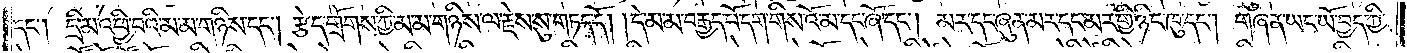དང༌། དྲི་མ་འཕྱི་བའི་མ་མ་གཉིས་དང༌། རྩེད་གྲོགས་ཀྱི་མ་མ་གཉིས་ལ་རྗེས་སུ་གཏད་དོ། །དེ་མ་མ་བརྒྱད་པོ་དག་གིས་འོ་མ་དང་ཞོ་དང༌། མར་དང་ཞུན་མར་དང་མར་གྱི་ཉིང་ཁུ་དང༌། གཞན་ཡང་ཡོ་བྱད་ཀྱི་
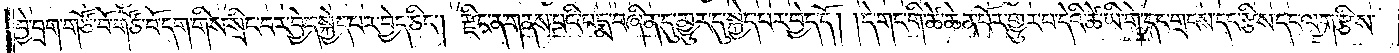བྱེ་བྲག་གཙོ་བོ་གཙོ་བོ་དག་གིས་སྲིང་བར་བྱེད་སྐྱེད་པར་བྱེད་ཅིང༌། རྫིང་ན་གནས་པའི་པདྨ་བཞིན་དུ་མྱུར་དུ་སྐྱེད་པར་བྱེད་དོ། །དེ་གང་གི་ཚེ་ཆེན་པོར་གྱུར་པ་དེའི་ཚེ་ཡི་གེ་དང་གྲངས་དང་རྩིས་དང་ལག་རྩིས་
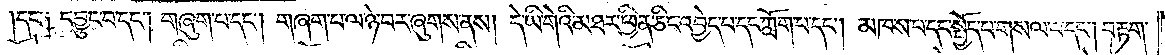དང་༑ དབྱུང་བ་དང༌། གཞུག་པ་དང༌། གཞག་པ་ལ་ཉེ་བར་ཞུགས་ནས། དེ་ཡི་གེའི་མཐར་ཕྱིན་ཅིང་འབྱེད་པ་དང་ཀློག་པ་དང༌། མཁས་པ་དང་སྤྱོད་པ་གསལ་བ་དང༌། བརྟག་
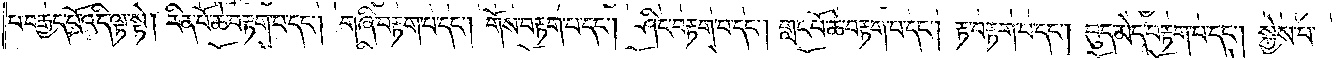པ་བརྒྱད་པོ་འདི་ལྟ་སྟེ། རིན་པོ་ཆེ་བརྟག་པ་དང༌། གཞི་བརྟག་པ་དང༌། གོས་བརྟག་པ་དང༌། ཤིང་བརྟག་པ་དང༌། གླང་པོ་ཆེ་བརྟག་པ་དང༌། རྟ་བརྟག་པ་དང༌། བུད་མེད་བརྟག་པ་དང༌། སྐྱེས་པ་
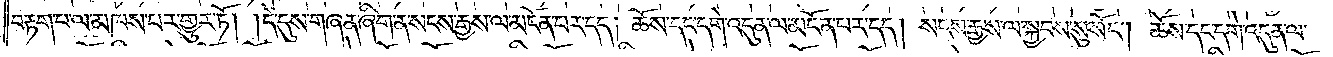བརྟག་པ་ལ་མཁས་པར་གྱུར་ཏོ། །དེ་དུས་གཞན་ཞིག་ན་སངས་རྒྱས་ལ་མངོན་པར་དད། ཆོས་དང་དགེ་འདུན་ལ་མངོན་པར་དད། སངས་རྒྱས་ལ་སྐྱབས་སུ་སོང༌། ཆོས་དང་དགེ་འདུན་ལ་
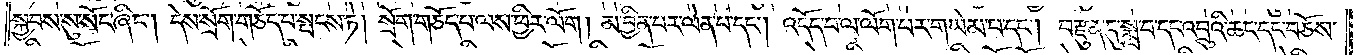སྐྱབས་སུ་སོང་ཞིང༌། དེས་སྲོག་གཅོད་པ་སྤངས་ཏེ། སྲོག་གཅོད་པ་ལས་ཕྱིར་ལོག །མ་བྱིན་པར་ལེན་པ་དང༌། འདོད་པ་ལ་ལོག་པར་གཡེམ་པ་དང༌། བརྫུན་དུ་སྨྲ་བ་དང་འབྲུའི་ཆང་དང་བཅོས་
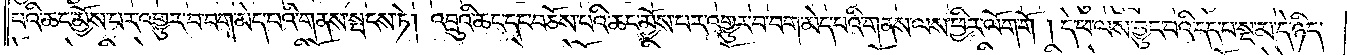པའི་ཆང་མྱོས་པར་འགྱུར་བ་བག་མེད་པའི་གནས་སྤངས་ཏེ། འབྲུའི་ཆང་དང་བཅོས་པའི་ཆང་མྱོས་པར་འགྱུར་བ་བག་མེད་པའི་གནས་ལས་ཕྱིར་ལོག་གོ །དེ་ཕ་ལས་བྱུང་བའི་དད་པ་སྔ་མ་དེ་ཉིད་
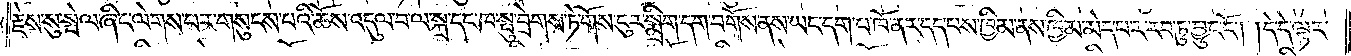རྗེས་སུ་སྤེལ་ཞིང་ལེགས་པར་གསུངས་པའི་ཆོས་འདུལ་བ་ལ་སྐྲ་དང་ཁ་སྤུ་བྲེགས་ཏེ་གོས་ངུར་སྨྲིག་དག་བགོས་ནས་ཡང་དག་པ་ཁོ་ནར་དད་པས་ཁྱིམ་ནས་ཁྱིམ་མེད་པར་རབ་ཏུ་བྱུང་ངོ༌། །དེ་དེ་ལྟར་
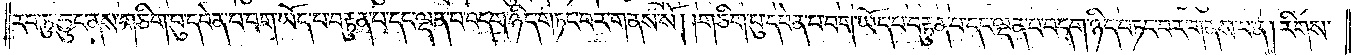རབ་ཏུ་བྱུང་ནས་གཅིག་བུ་དབེན་པ་བག་ཡོད་པ་བརྟུན་པ་དང་ལྡན་པ་བདག་ཉིད་གཏང་བར་གནས་སོ། །གཅིག་པུ་དབེན་པ་བག་ཡོད་པ་བརྟུན་པ་དང་ལྡན་པ་བདག་ཉིད་བཏང་བར་གནས་པ་ན། རིགས་
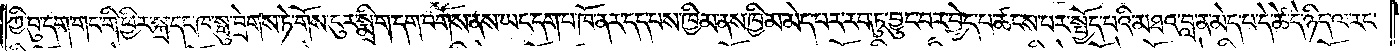ཀྱི་བུ་དག་གང་གི་ཕྱིར་སྐྲ་དང་ཁ་སྤུ་བྲེགས་ཏེ་གོས་ངུར་སྨྲིག་དག་བགོས་ནས་ཡང་དག་པ་ཁོ་ནར་དད་པས་ཁྱིམ་ནས་ཁྱིམ་མེད་པར་རབ་ཏུ་བྱུང་བར་བྱེད་པ་ཚངས་པར་སྤྱོད་པའི་མཐའ་བླ་ན་མེད་པ་དེ་ཚེ་དེ་ཉིད་ལ་རང་
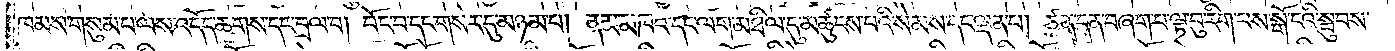ཁམས་གསུམ་པ་ལས་འདོད་ཆགས་དང་བྲལ་བ། བོང་བ་དང་གསེར་དུ་མཉམ་པ། ནམ་མཁའ་དང་ལག་མཐིལ་དུ་མཚུངས་པའི་སེམས་དང་ལྡན་པ། ཙན་དན་བཞག་པ་ལྟ་བུ་རིག་པས་སྒོ་ངའི་སྦུབས་
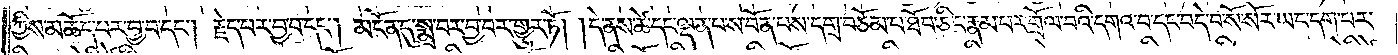ཀྱིས་མཆོད་པར་བྱ་བ་དང༌། རྗེད་པར་བྱ་བ་དང༌། མངོན་དུ་སྨྲ་བར་བྱ་བར་གྱུར་ཏོ། །དེ་ནས་ཚེ་དང་ལྡན་པ་ས་བོན་པས་དགྲ་བཅོམ་པ་ཐོབ་ཅིང་རྣམ་པར་གྲོལ་བའི་དགའ་བ་དང་བདེ་བ་སོ་སོར་ཡང་དག་པར་
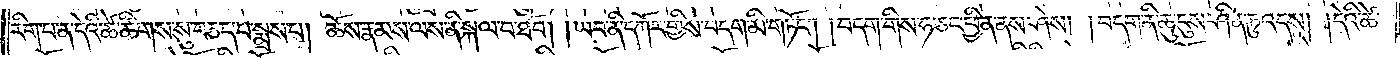རིག་པ་ན་དེའི་ཚེ་ཚིགས་སུ་བཅད་པ་སྨྲས་པ། ཆོས་རྣམས་ལས་ནི་སྐལ་བ་ཐོབ། །ཡབ་ནི་དཀོར་གྱིས་བདག་མི་གཏོང༌། །བདག་གིས་ཧ་ཅང་ཕྱིན་ནས་ཤེས། །བདག་ནི་ཆུ་ངུས་ཤིན་ཏུ་འདས། །དེའི་ཚེ་
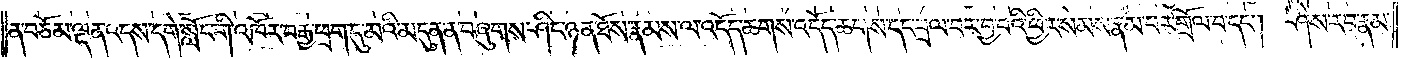ན་བཅོམ་ལྡན་འདས་དགེ་སློང་གི་འཁོར་བརྒྱ་ཕྲག་དུ་མའི་མདུན་ན་བཞུགས་ཤིང་ཉན་ཐོས་རྣམས་ལ་འདོད་ཆགས་འདོད་ཆགས་དང་བྲལ་བར་བྱ་བའི་ཕྱིར་སེམས་རྣམ་པར་གྲོལ་བ་དང༌། ཤེས་རབ་རྣམ་
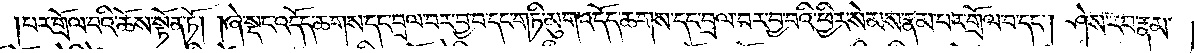པར་གྲོལ་བའི་ཆོས་སྟོན་ཏོ། །ཞེ་སྡང་འདོད་ཆགས་དང་བྲལ་བར་བྱ་བ་དང་གཏི་མུག་འདོད་ཆགས་དང་བྲལ་བར་བྱ་བའི་ཕྱིར་སེམས་རྣམ་པར་གྲོལ་བ་དང༌། ཤེས་རབ་རྣམ་
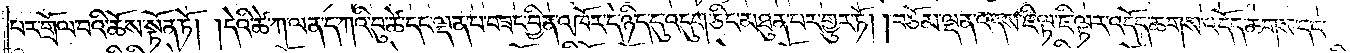པར་གྲོལ་བའི་ཆོས་སྟོན་ཏོ། །དེའི་ཚེ་ཀ་ལན་ད་ཀའི་བུ་ཚེ་དང་ལྡན་པ་བཟང་བྱིན་འཁོར་དེ་ཉིད་དུ་འདུག་ཅིང་མཐུན་པར་གྱུར་ཏོ། །བཅོམ་ལྡན་འདས་ཇི་ལྟ་ཇི་ལྟར་འདོད་ཆགས་འདོད་ཆགས་དང་
